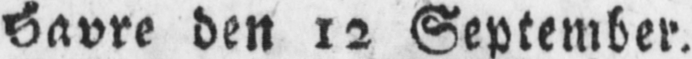Havre den 12 September.
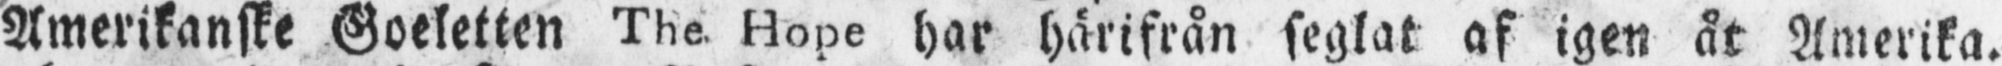Amerikanske Goeletten The Hope har härifrån seglat af igen åt Amerika.
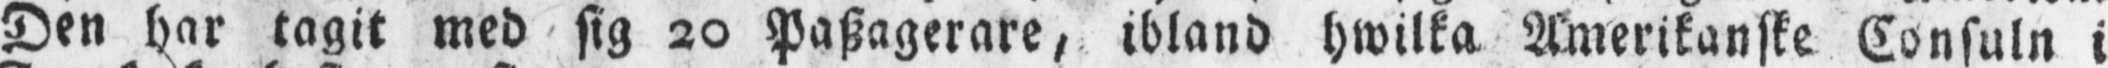Den har tagit med sig 20 Paszagerare, ibland hwilka Amerikanske Consuln i
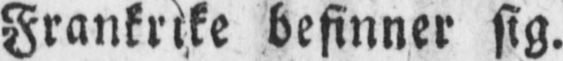Frankrike befinner sig.
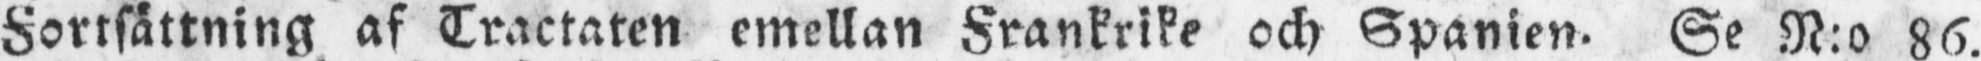Fortsättning af Tractaten emellan Frankrike och Spanien. Se N:o 86.
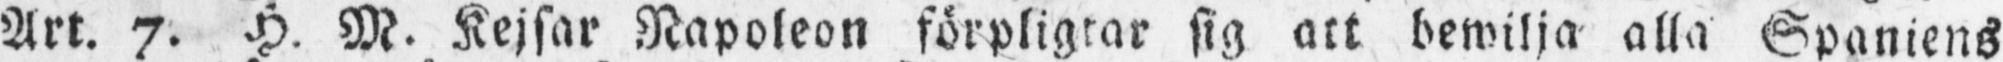Art. 7. H. M. Kejsar Napoleon förpligtar sig att bewilja alla Spaniens
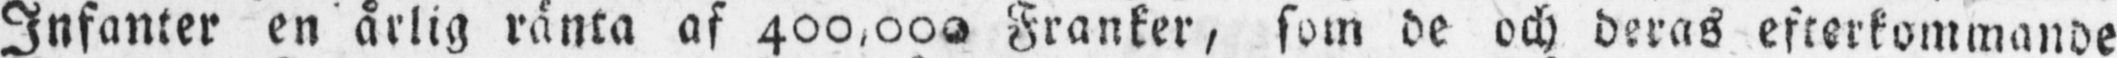Infanter en årlig ränta af 400,000 Franker, som de och deras efterkommande
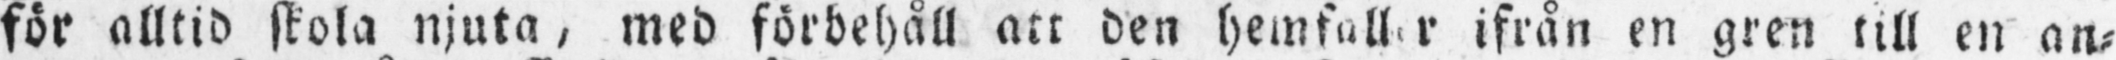för alltid skola njuta, med förbehåll att den hemfall r ifrån en gren till en an-
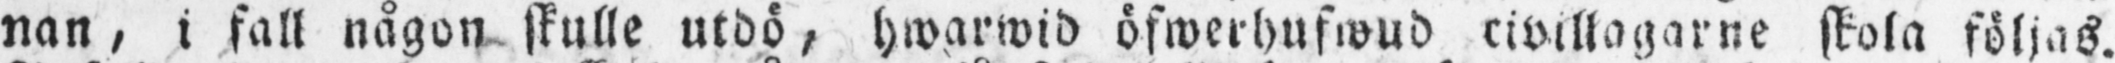nan, i fall någon skulle utdö, hwarwid öfwerhufwud civillagarne skola följas.
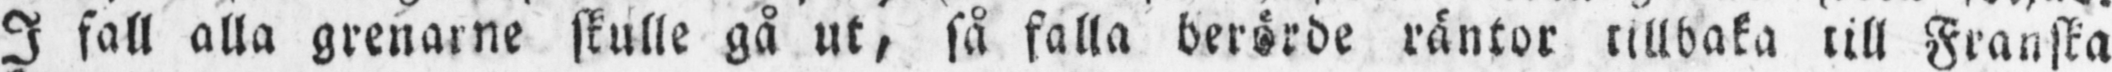I fall alla grenarne skulle gå ut, så falla berörde räntor tillbaka till Franska
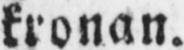kronan.
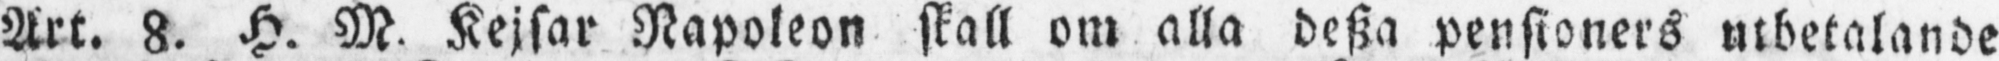Art. 8. H. M. Kejsar Napoleon skall om alla desza pensioners utbetalande
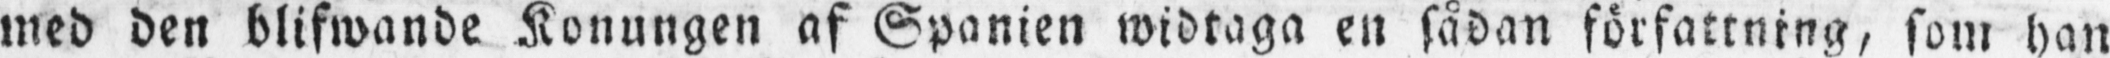med den blifwande Konungen af Spanien widtaga en sådan författning, som han
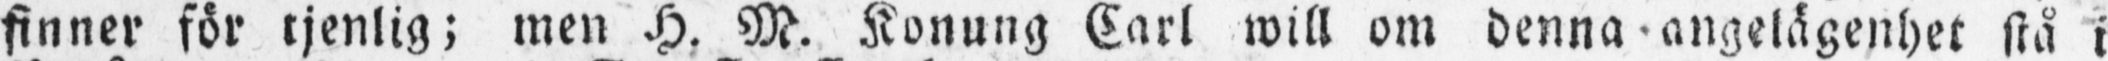finner för tjenlig; men H. M. Konung Carl will om denna angelägenhet stå i
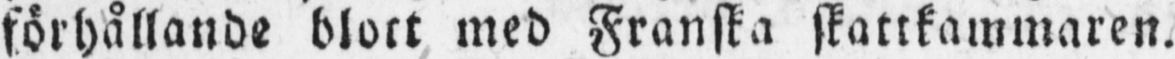förhållande blott med Franska skattkammaren.
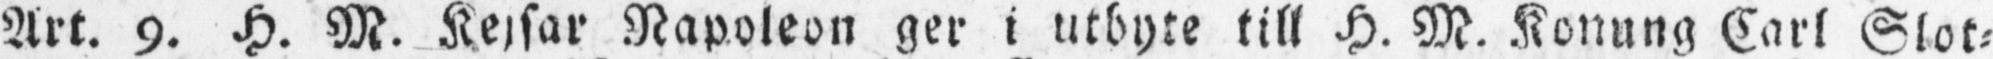Art. 9. H. M. Kejsar Napoleon ger i utbyte till H. M. Konung Carl Slot-
